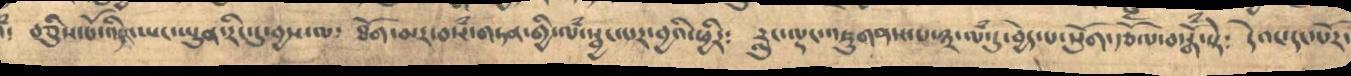བཅིུས་པོ་འདི་ཡང་ཡུན་རིང་དུ་བྱས་ལ༴ ཐོག་མར་བསཾ་གཏན་གྱི་ལཾ་སྦྱང་པར་བྱའི་ཕྱིར༴ རླུང་ལྡང་འཇུགནས་པ་༣་ལཾ་དུ་བྱེད་པ་སློག་བསྒོ་སྟེ༴ དེའང་དང་པོར་
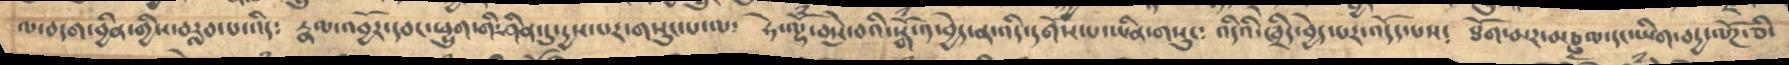ལ་བདག་བྱིན་གྱིས་བརླབ་པ་འདི༴ རྣལ་འབྱོར་དབང་ཕྱུག་གི་ཤཱིན་དུ་དྱས་པར་གསུང་པ་ལ༴ ཧེ་ལྟོཾ་བསེུ་བའི་སྒོ་༡་བྱེད་བ་འདི་དགོས་པ་ཡིན་གསུང༴ འདིའི་ཁྲིད་བྱེད་པར་འདོད་པས༴ ཐོག་མར་མཎྜལ་དང་ཡིག་བདྱ་ལོཌ་ཅི་
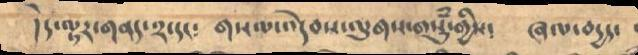།དེ་ལྟར་གནད་༢་དང༴ གསལ་འདེབས་ལུགས་གསུཾ་གྱིས༴ ཞལ་བདྱད་
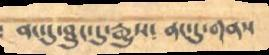ནང་དུ་ཐུང་དུ་རྒྱུས༴ ནང་དུ་གནས
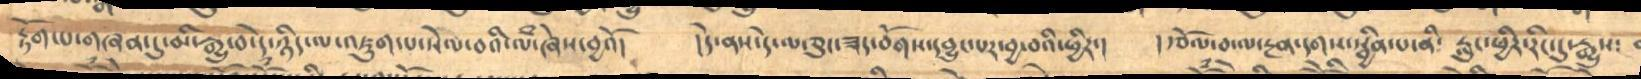རྟོག་པ་གཞན་དུ་མི་རྒྱུ་བ་དེ་ཉིད་ལ་འཇུག་པ་སེལ་བའི་ལཾ་ཞེས་བྱའོ། །དེ་ནས་དེ་ལ་ཅུང་ཟད་བོགས་དབྱུང་པར་བྱ་བའི་ཕྱིར་། །རྩོལ་བ་ལ་རྔན་དགས་སྦྱིན་པ་ནི༴ རླུང་ཕྱིར་རིང་དུ་རྒྱུས༴
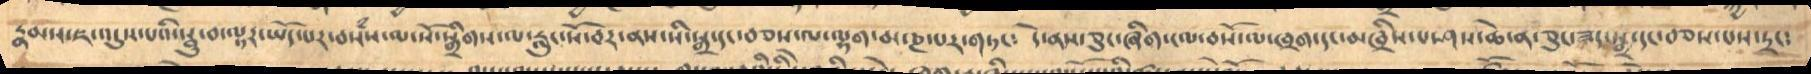རྣམས་ཇ་འདུས་པའི་སྦུ་བ་ལྟར་ཡོད་བསཾས་ལ་སོ་སྒྲིགས་ལ་རླུང་སོ་བར་ནས་སི་སྒྲ་དང་བཅས་ལ་ལྷག་མ་ཎ་པར་གཏང༴ དེ་སན་ཅུང་ཞིག་ངལ་བསོ་ལ་ཁྲག་དང་མཁྲིས་པ་ཤས་ཆེ་ན་ཅུས་ཟད་སྒྲ་དང་བཅས་པས་དྲང༴
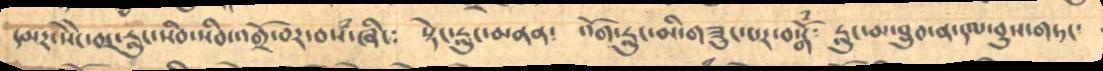དམར་སེེང་བར་རླུང་སིབ་སིབ་འགྲོ་བར་བསཾ་ཞིང༴ སྟེང་རླུང་མནན༴ འོག་རླུང་མི་གཟུང་པར་བསྒོཾ༴ རླུང་མ་ཐུབ་ན་དལ་བུས་གཏང་
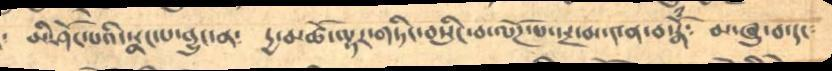མི་ཤོང་པའི་སྣང་པ་བྱུང་ན༴ དྱ་མཚོ་ལྟར་གཏིང་བསླིང་བ་ལོཌ་པ་རྔ་མ་༤ན་བསྒོཾ༴ མ་ཞུ་བ་དང༴
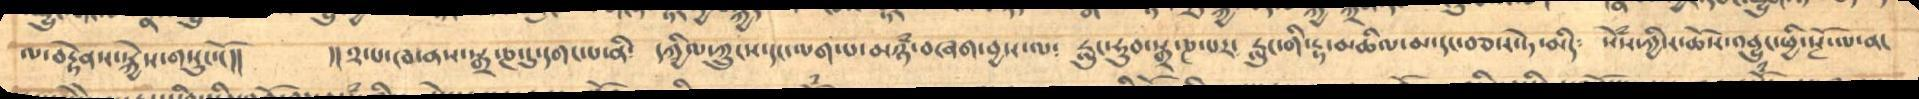ལ་བརྟེནས་སྐྱེས་གསུངསོ།། །།༢་པ་ཁ་ནས་སྒྲ་ཎ་དུ་དགང་པ་ནི༴ དཀྱིལ་དཀྲུངས་དང་ལག་པ་མཉཾ་བཞག་བྱས་ལ༴ རླུང་ཧུབ་སྒྲ་ཎ་པར་ རླུང་གི་རྟ་མཆིལ་མ་དང་བཅས་ཏེ་མིད༴ སེཾས་ཀྱིས་ཆོས་འབྱུང་ཕྱི་སྔོ་ལ་ནང
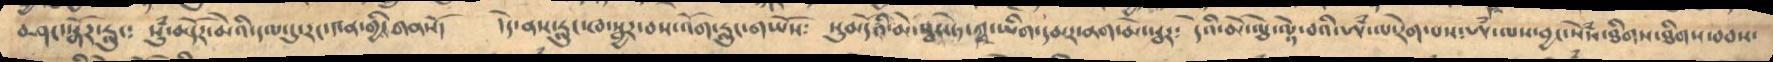བཤང་སྒོར་རླུང༴ སུཾ་མདོར་མེའི་དལ་དུ་རང་༤ན་གྱི་གནསོ། །དེ་ནས་རླུང་ཁ་སྦྱར་བས་འོག་རླུང་གཡོས༴ སུམདོའི་མེ་སྦར་ཏེ་ཀྵ་ཡིག་དམར་ནག་མེ་སྦར༴ དེའི་མེ་ལྕེ་ལྟེ་བའི་ཨཾ་ལ་རེག་པས་ཨཾ་ལས་བྱང་སེཾས་ཐིགས་ཐིགས་བབས་
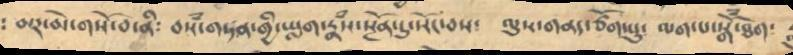མར་མེ་གསོ་བ་ནི༴ བསཾ་གཏན་གྱི་ཡླག་རྣཾས་སྔོན་དུ་སོང་བས༴ ལུས་གནད་ཙོག་པུ༴ ལག་པ་སྒོཾ་ཐག་
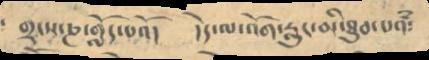གྲངས་ཎ་གློད་པའོ། །དེ་ལ་འོག་རླུང་མི་ཐུབ་པའཾ༴
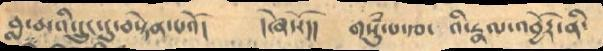བླ་མའི་དྲུང་དུ་བསྟེན་པའོ། །ཞེསོ།། གསུཾ་པ་རྩ་ འི་རྣལ་འབྱོར་ནི་
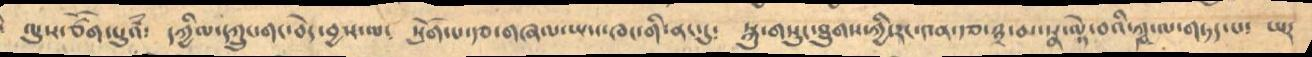ལུས་ཙོག་པུའཾ༴ དཀྱིལ་དཀྲུང་གང་བེད་བྱས་ལ༴ སོུག་པ་རྩ་གཞལ་ཡས་ཁང་གི་ནང་དུ༴ སྐུ་གསུང་ཐུགས་ཀྱི་རང་༤ན་རྩ་༣་མ་སྣ་ལྟེ་བའི་ཀྵ་ལ་གཏད་པ༴ ཡར
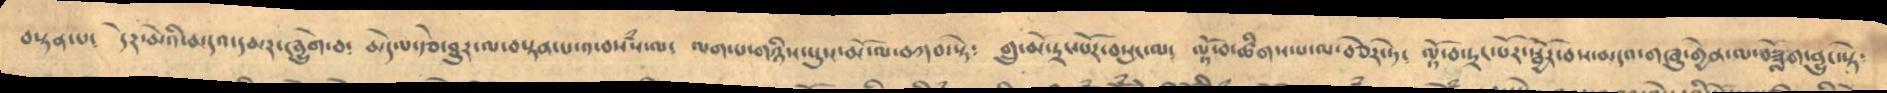བསྟན་པ༴ དེར་མེའི་མདའ་དམར་ཞུགེ་བ༴ ཆེད་པ་རྩེ་ཐུར་ལ་བསྟན་པ་༡་བསཾས་ལ༴ ལག་པ་གཉིས་པུས་མོ་ལ་བཀབ་སྟེ༴ གྲུ་མོ་དྲང་པོར་བསླང་ལ་ ལྟོ་བའི་ཚིགས་པ་ལ་བཅེར་ཏེ༴ ལྟོ་བ་དྲང་པོར་སྦྱོར་བས་མདའ་གཞུ་གྱེན་ལ་བཟློག་བྱུང་སྟེ༴
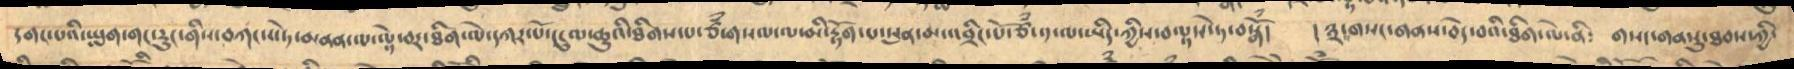དགང་པའི་ཡླག་གང་རུང་གིས་བཀངས་ཏེ་མནན་ལ་ལྟེ་བར་ཐིག་ལེ་དཀར་པོ་དངུལ་ཆུའི་ཐིགས་པ་ཙཾ་གསལ་ལ་མི་རྟོག་པ་སུན་མ་འབྲིང་པོ་ཙཾ་༡་ལ་ཡིད་ཀྱིས་བལྟས་ཏེ་བསྒོཾ། །༣་གསང་གནས་བདེ་བའི་ཐིག་ལེ་ནི༴ གསང་གནསུ་ཐབས་ཀྱི་
